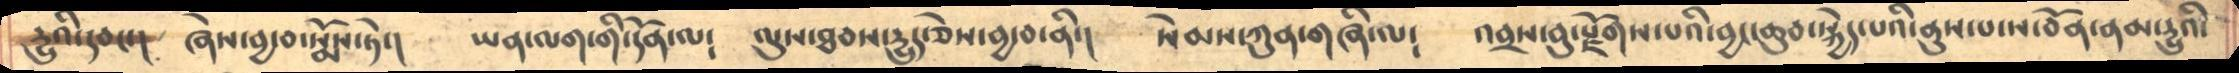དྱུའི་དབང་།      ཞེས་བྱ་བ་སྨོས་ཏེ་།     ཡན་ལག་གི་དོན་ལ༴     ལུས་ཐབས་དྱུད་ཅེས་བྱ་བ་ནི་།   སེམས་ཀུན་གཞི་ལ༴   འབྲས་བུ་རྫོགས་པའི་བྱང་ཆུབ་སྐྱེད་པའི་ནུས་པ་ས་བོན་ནམ་དྱུའི་
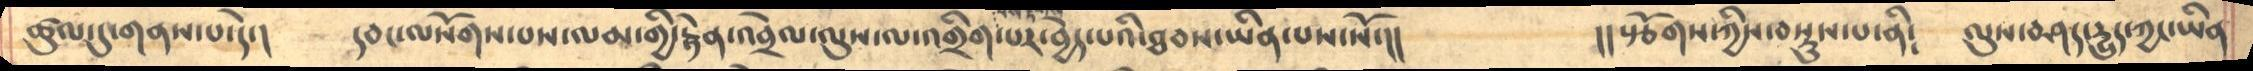ཚུལ་དུ་གནས་པ་དེ་།     དབང་ལསོགས་པས་ལམ་གྱི་རྟེན་འབྲེལ་ལུས་ལ་འགྲིག་པར་བྱེད་པའི་ཐབས་ཡིན་པས་སོ་།།      །།སྩོགས་ཀྱིས་བསྡུས་པ་ནི༴    ལུས་བཤད་དྱུད་ཀྱང་ཡིན
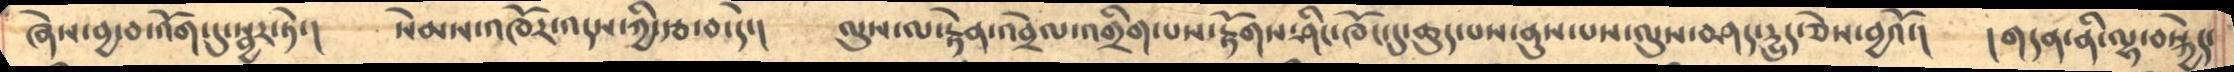ཞེས་བྱ་བ་འོག་དུ་སྦྱར་ཏེ་།    སེམས་འཁོར་འདས་ཀྱི་རྩ་བ་དེ་།   ལུས་ལ་རྟེན་འབྲེལ་འགྲིག་པས་རྟོགས་ཤིང་ཁོང་དུ་ཆུད་པས་ནུས་པས་ལུས་བཤད་དྱུད་ཅེས་བྱའོ་།    །གདན་ནི་ལྷ་བསྐྱེད་
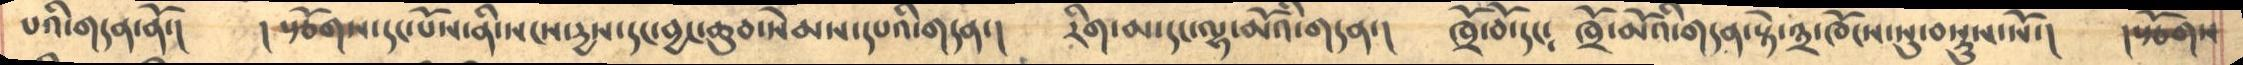པའི་གདན་ནོ་།     །སྩོགས་དང་པོས་ནི་སངས་དྱས་དང་བྱང་ཆུབ་སེམས་དཔའི་གདན་།    རིག་མ་དང་ལྷ་མོའི་གདན་།    ཁྲོ་བོ་དང༴  ཁྲོ་མོའི་གདན་སྟེ་༣་ཁོངས་སུ་བསྡུས་སོ་།     །སྩོགས
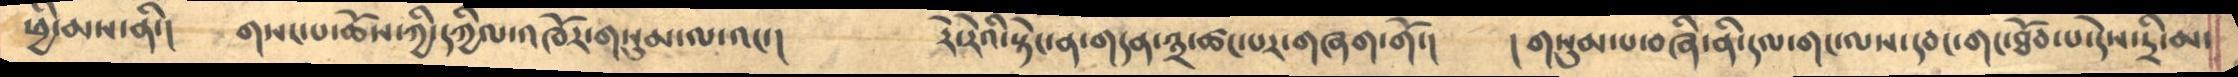ཕྱི་མས་ནི་།     གསང་བ་ཆོས་ཀྱི་དཀྱིལ་འཁོར་གསུམ་ལ་འང་།      རེ་རེའི་སྟེང་ན་གདན་༣་ཚང་པར་གཞག་གོ་།    །གསུམ་པ་བཞི་ནི་རལ་གང་ལས་དབང་གང་ཐོབ་པ་དེས་དྲི་མ་
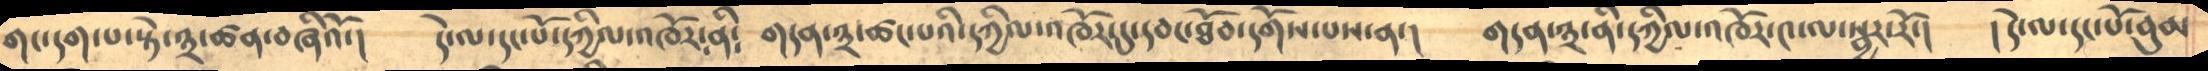གང་དག་པ་སྟེ་༣་ཚན་བཞིའོ་།     དེ་ལ་དང་པོ་དཀྱིལ་འཁོར་ནི༴  གདན་༣་ཚང་པའི་དཀྱིལ་འཁོར་དུ་དབང་ཐོབ་དགོས་པས་ན་།    གདན་༣་ནི་དཀྱིལ་འཁོར་༤་ལ་སྦྱར་རོ་།    །དེ་ལ་དང་པོ་བུམ
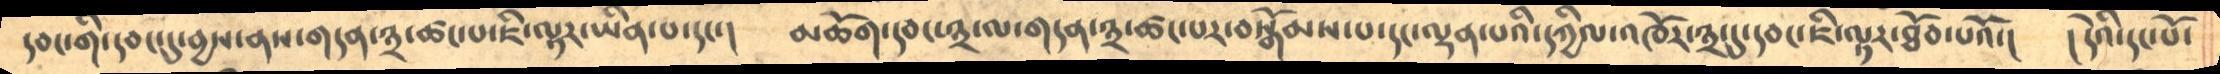དབང་གི་དབང་དུ་བྱས་ནས་གདན་༣་ཚང་པ་ཇི་ལྟར་ཡིན་པ་དང་།     མཆོག་དབང་༣་ལ་གདན་༣་ཚང་པར་བསྒོམས་པ་དང་ལྡན་པའི་དཀྱིལ་འཁོར་༣་དུ་དབང་ཇི་ལྟར་ཐོབ་པའོ་།    །དེའི་དང་པོ་
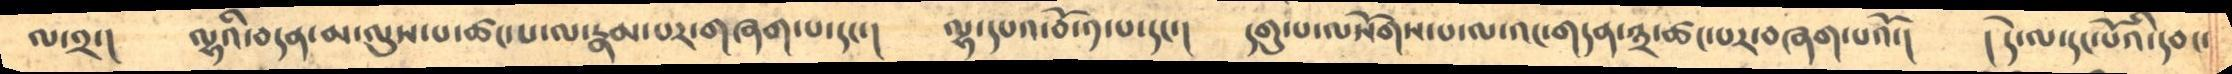ལ་༢་།     ལྷའི་བདན་མ་ལུས་པ་ཚང་པ་ལ་རྣམ་པར་གཞག་པ་དང་།     ལྷ་དཔའ་བོ་༡་པ་དང་།   དགུ་པ་ལསོགས་པ་ལ་འང་གདན་༣་ཚང་པར་བཞག་པའོ་།   །དེ་ལ་དང་པོའི་དབང་
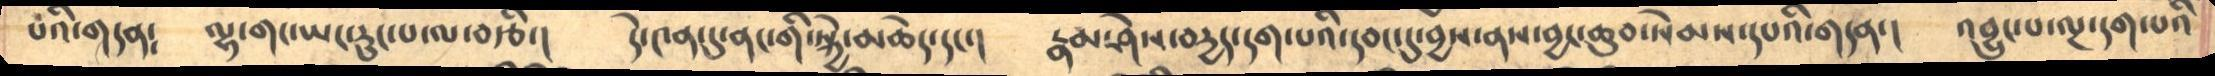པའི་གདན༴     ལྷ་གང་ཡང་རུང་པ་ལ་བརྩི་།     དེ་༤ན་དུ་ནང་གི་སྐྱེ་མཆེད་དང་།    རྣམ་ཤེས་བདྱད་དག་པའི་དབང་དུ་བྱས་ནས་བྱང་ཆུབ་སེམས་དཔའི་གདན་།    འབྱུང་པ་ལྔ་དག་པའི
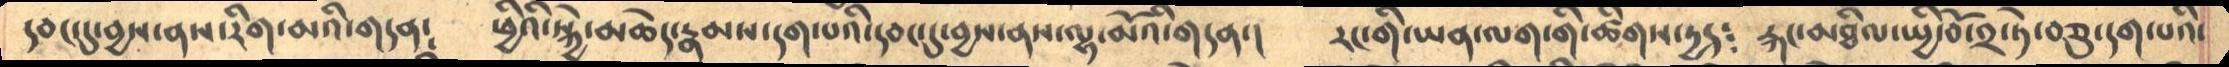དབང་དུ་བྱས་ནས་རིག་མའི་གདན༴      ཕྱིའི་སྐྱེ་མཆེད་རྣམས་དག་པའི་དབང་དུ་བྱས་ནས་ལྷ་མོའི་གདན་།    རང་གི་ཡན་ལག་གི་ཚིགས་དྱད༴    རྐང་མཐིལ་སྤྱི་བོ་༢་ཏེ་བཅུ་དག་པའི་
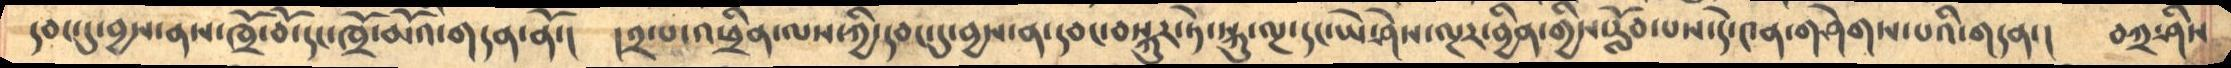དབང་དུ་བྱས་ནས་ཁྲོ་བོ་དང་ཁྲོ་མོའི་གདན་ནོ་།    །༢་པ་འཕྲིན་ལས་ཀྱི་དབང་དུ་བྱས་ན་དབང་བསྐུར་ཏེ་སྐུ་ལྔ་དང་ཡེ་ཤེས་ལྔར་བྱིན་གྱིས་རློབ་པས་དེ་༤ན་གཤེགས་པའི་གདན་།    བཀྲ་ཤིས
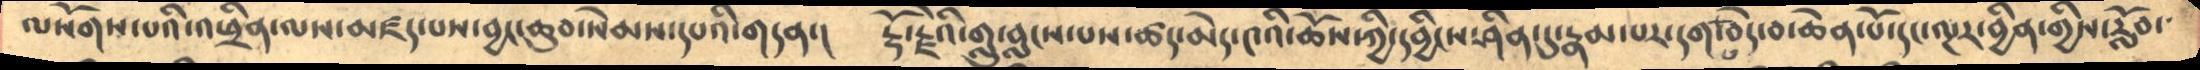ལསོགས་པའི་འཕྲིན་ལས་མཛད་པས་བྱང་ཆུབ་སེམས་དཔའི་གདན་།     རྡོ་རྗེའི་གླུ་བླངས་པས་ཚད་མེད་༤འི་ཆོས་ཀྱི་དབྱིངས་ཤིན་དུ་རྣམ་པར་དག་པ་བདེ་བ་ཆེན་པོ་དང་ལྔར་བྱིན་གྱིས་རློབ་
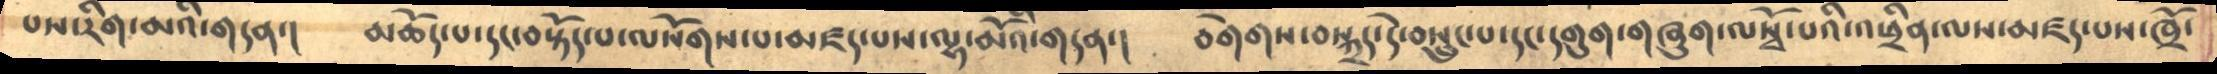པས་རིག་མའི་གདན་།     མཆོད་པ་དང་བསྟོད་པ་ལསོགས་པ་མཛད་པས་ལྷ་མོའི་གདན་།      བགེགས་བསྐྲད་དེ་བསྲུང་པ་དང་དགུག་གཞུག་ལསྭོ་པའི་འཕྲིན་ལས་མཛད་པས་ཁྲོ་
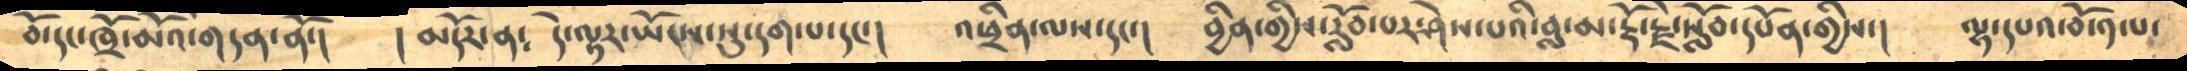བོ་དང་ཁྲོ་མོའི་གདན་ནོ་།     །མདོར་ན༴  དེ་ལྟར་ཡོངས་སུ་དག་པ་དང་།     འཕྲིན་ལས་དང་།     བྱིན་གྱིས་རློབ་པར་ཤེས་པའི་བླ་མ་རྡོ་རྗེ་སློབ་དཔོན་གྱིས་།    ལྷ་དཔའ་བོ་༡་པ་
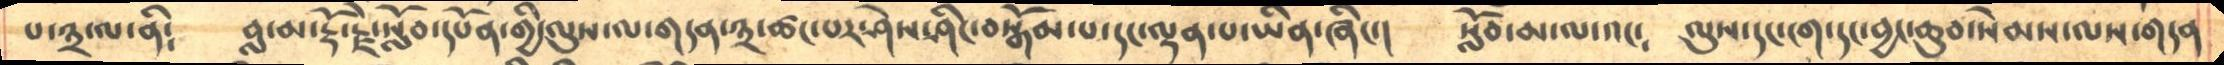པ་༣་ལ་ནི༴    བླ་མ་རྡོ་རྗེ་སློབ་དཔོན་གྱི་ལུས་ལ་གདན་༣་ཚང་པར་ཤེས་ཤིང་བསྒོམ་པ་དང་ལྡན་པ་ཡིན་ཞིང་།       སློབ་མ་ལ་འང༴    ལུས་དང་ངག་དང་བྱང་ཆུབ་སེམས་ལས་གདན
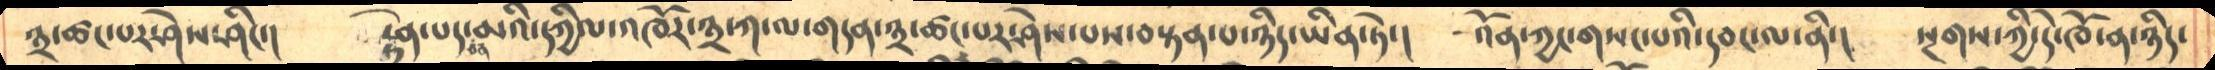༣་ཚང་པར་ཤེས་ཤིང་།   རྟེན་པད་ཅན་མའི་དཀྱིལ་འཁོར་༣་ཀ་ལ་གདན་༣་ཚང་པར་ཤེས་པས་བསྟན་པ་ཉིད་ཡིན་ཏེ་།   འོན་ཀྱང་གསང་པའི་དབང་ལ་ནི་།  སྔགས་ཀྱི་དེ་ཁོ་ན་ཉིད་
